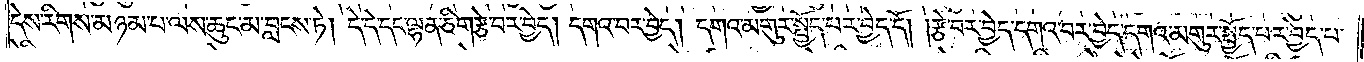དེས་རིགས་མཉམ་པ་ལས་ཆུང་མ་བླངས་ཏེ། དེ་དེ་དང་ལྷན་ཅིག་རྩེ་བར་བྱེད། དགའ་བར་བྱེད། དགའ་མགུར་སྤྱོད་པར་བྱེད་དོ། །རྩེ་བར་བྱེད་དགའ་བར་བྱེད་དགའ་མགུར་སྤྱོད་པར་བྱེད་པ་
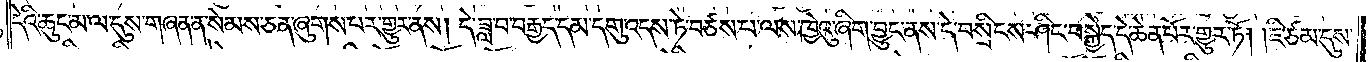དེའི་ཆུང་མ་ལ་དུས་གཞན་ན་སེམས་ཅན་ཞུགས་པར་གྱུར་ནས། དེ་ཟླ་བ་བརྒྱད་དམ་དགུ་འདས་ཏེ་བཙས་པ་ལས་ཁྱེའུ་ཞིག་བྱུང་ནས་དེ་བསྲིངས་ཤིང་བསྐྱེད་དེ་ཆེན་པོར་གྱུར་ཏོ། །ཇི་ཙམ་དུས་
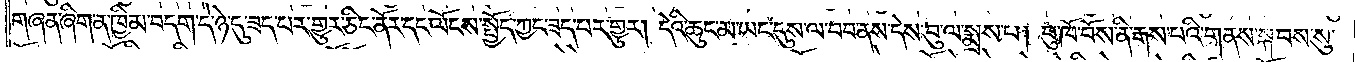གཞན་ཞིག་ན་ཁྱིམ་བདག་དེ་ཉེ་དུ་ཟད་པར་གྱུར་ཅིང་ནོར་དང་ལོངས་སྤྱོད་ཀྱང་ཟད་པར་གྱུར། དེའི་ཆུང་མ་ཡང་དུས་ལ་བབ་ནས་དེས་བུ་ལ་སྨྲས་པ། བུ་ཁོ་བོས་ནི་རྒས་པའི་གནས་སྐབས་སུ་
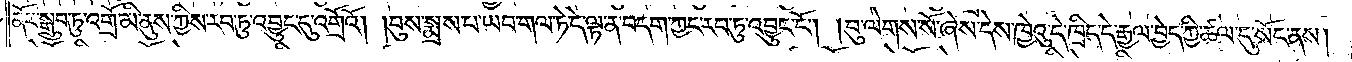ནོར་སྒྲུབ་ཏུ་འགྲོ་མི་ནུས་ཀྱིས་རབ་ཏུ་འབྱུང་དུ་འགྲོའོ། །བུས་སྨྲས་པ་ཡབ་གལ་ཏེ་དེ་ལྟ་ན་བདག་ཀྱང་རབ་ཏུ་འབྱུང་ངོ༌། །བུ་ལེགས་སོ་ཞེས་དེས་ཁྱེའུ་དེ་ཁྲིད་དེ་རྒྱལ་བྱེད་ཀྱི་ཚལ་དུ་སོང་ནས།
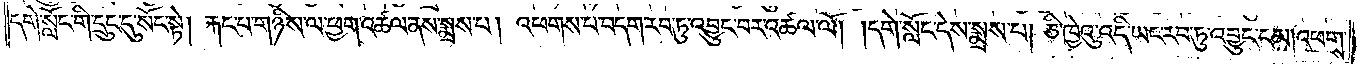དགེ་སློང་གི་དྲུང་དུ་སོང་སྟེ། རྐང་པ་གཉིས་ལ་ཕྱག་འཚལ་ནས་སྨྲས་པ། འཕགས་པ་བདག་རབ་ཏུ་འབྱུང་བར་འཚལ་ལོ། །དགེ་སློང་དེས་སྨྲས་པ། ཅི་ཁྱེའུ་འདི་ཡང་རབ་ཏུ་འབྱུང་ངམ། འཕགས་
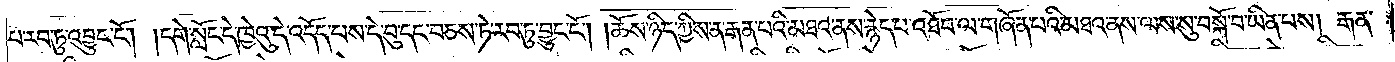པ་རབ་ཏུ་འབྱུང་ངོ༌། །དགེ་སློང་དེ་ཁྱེའུ་དེ་འདོད་པས་དེ་བུ་དང་བཅས་ཏེ་རབ་ཏུ་བྱུང་ངོ༌། །ཆོས་ཉིད་ཀྱི་ས་ན་རྒན་པའི་མཐའ་ནས་རྙེད་པ་འཐོབ་ལ་གཞོན་པའི་མཐའ་ནས་ལས་སུ་བསྐོ་བ་ཡིན་པས། རྒན་
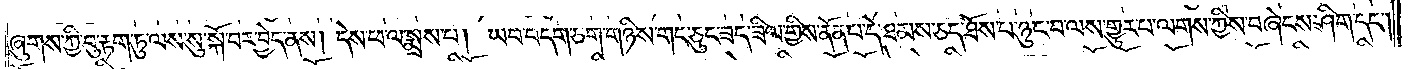ཞུགས་ཀྱི་བུ་རྟག་ཏུ་ལས་སུ་སྐོ་བར་བྱེད་ནས། དེས་ཕ་ལ་སྨྲས་པ། ཡབ་བདག་ཅག་གཉིས་གང་ཅུང་ཟད་ཟིལ་གྱིས་ནོན་པ་དེ་ཐམས་ཅད་ཐོས་པ་ཉུང་བ་ལས་གྱུར་པ་ལགས་ཀྱིས་བཞེངས་ཤིག་དང༌།
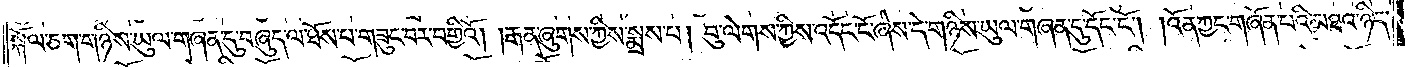སྐོལ་ཅག་གཉིས་ཡུལ་གཞན་དུ་བཞུད་ལ་ཐོས་པ་གཟུང་བར་བགྱིའོ། །རྒན་ཞུགས་ཀྱིས་སྨྲས་པ། བུ་ལེགས་ཀྱིས་འདོང་ངོ་ཞེས་དེ་གཉིས་ཡུལ་གཞན་དུ་དོང་ངོ༌། །འོན་ཀྱང་གཞོན་པའི་མཐའ་ཉིད་
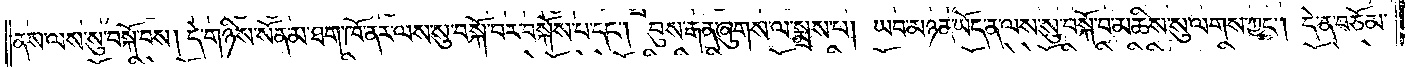ནས་ལས་སུ་བསྐོ་བས། དེ་གཉིས་སོན་མ་ཐག་ཁོ་ནར་ལས་སུ་བསྐོ་བར་བསྐོས་པ་དང༌། བུས་རྒན་ཞུགས་ལ་སྨྲས་པ། ཡབ་མཉན་ཡོད་ན་ལས་སུ་བསྐོ་བ་མཆིས་སུ་ལགས་ཀྱང༌། དེ་ན་བཅོམ་
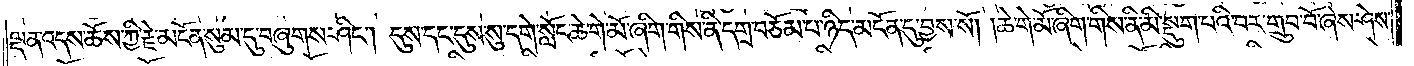ལྡན་འདས་ཆོས་ཀྱི་རྗེ་མངོན་སུམ་དུ་བཞུགས་ཤིང༌། དུས་དང་དུས་སུ་དགེ་སློང་ཆེ་གེ་མོ་ཞིག་གིས་ནི་དགྲ་བཅོམ་པ་ཉིད་མངོན་དུ་བྱས་སོ། །ཆེ་གེ་མོ་ཞིག་གིས་ནི་མི་སྡུག་པའི་བར་གྲུབ་བོ་ཞེས་ཤེས་
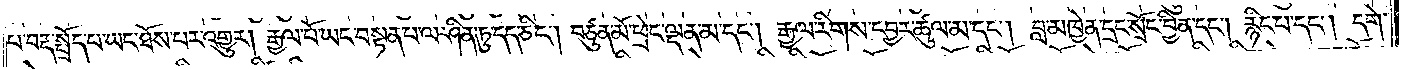པ་བརྡ་སྤྲོད་པ་ཡང་ཐོས་པར་འགྱུར། རྒྱལ་པོ་ཡང་བསྟན་པ་ལ་ཤིན་ཏུ་དད་ཅིང༌། བཙུན་མོ་ཕྲེང་ལྡན་མ་དང༌། རྒྱལ་རིགས་དབྱར་ཚུལ་མ་དང༌། བླ་མཁྱེན་དྲང་སྲོང་བྱིན་དང༌། རྙིང་པ་དང༌། དགེ་
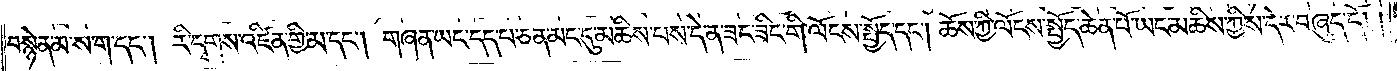བསྙེན་མ་ས་ག་དང༌། རི་དྭགས་འཛིན་གྱི་མ་དང༌། གཞན་ཡང་དད་པ་ཅན་མང་དུ་མཆིས་པས་དེ་ན་ཟང་ཟིང་གི་ལོངས་སྤྱོད་དང༌། ཆོས་ཀྱི་ལོངས་སྤྱོད་ཆེན་པོ་ཡང་མཆིས་ཀྱིས་དེར་བཞུད་དོ། །
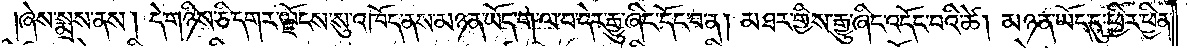།ཞེས་སྨྲས་ནས། དེ་གཉིས་ཅི་དགར་ལྗོངས་སུ་འཁོད་ནས་མཉན་ཡོད་ག་ལ་བ་དེར་རྒྱུ་ཞིང་དོང་བ་ན། མཐར་གྱིས་རྒྱུ་ཞིང་འདོང་བའི་ཚེ། མཉན་ཡོད་དུ་ཕྱིར་ཕྱིན་
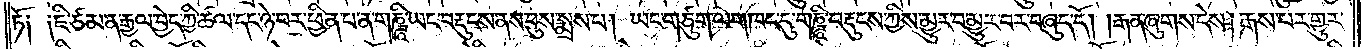ཏོ༑ ༑ཇི་ཙམ་ན་རྒྱལ་བྱེད་ཀྱི་ཚལ་དང་ཉེ་བར་ཕྱིན་པ་ན་གཎྜཱི་ཡང་བརྡུངས་ནས་བུས་སྨྲས་པ། ཡང་གཙུག་ལག་ཁང་དུ་གཎྜཱི་བརྡུངས་ཀྱིས་མྱུར་བ་མྱུར་བར་བཞུད་དོ། །རྒན་ཞུགས་དེས། རྒས་པར་གྱུར་
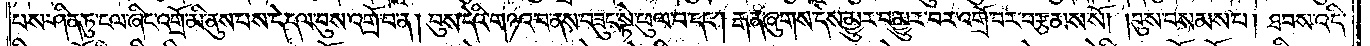པས་ཤིན་ཏུ་ངལ་ཞིང་འགྲོ་མི་ནུས་པས་དེ་དལ་བུས་འགྲོ་བ་ན། བུས་དེའི་གཉའ་བ་ནས་བཟུང་སྟེ་ཕུལ་བ་དང༌། རྒན་ཞུགས་དེས་མྱུར་བ་མྱུར་བར་འགྲོ་བར་བརྩམས་སོ། །བུས་བསམས་པ། ཐབས་འདི་
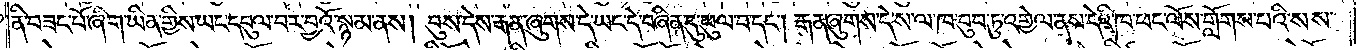ནི་བཟང་པོ་ཞིག་ཡིན་གྱིས་ཡང་དབུལ་བར་བྱའོ་སྙམ་ནས། བུས་དེས་རྒན་ཞུགས་དེ་ཡང་དེ་བཞིན་དུ་ཕུལ་བ་དང༌། རྒན་ཞུགས་དེ་ས་ལ་ཁ་བུབ་ཏུ་འགྱེལ་ནས་དེའི་ཁ་ཕང་ལོས་གློགས་པའི་སས་
